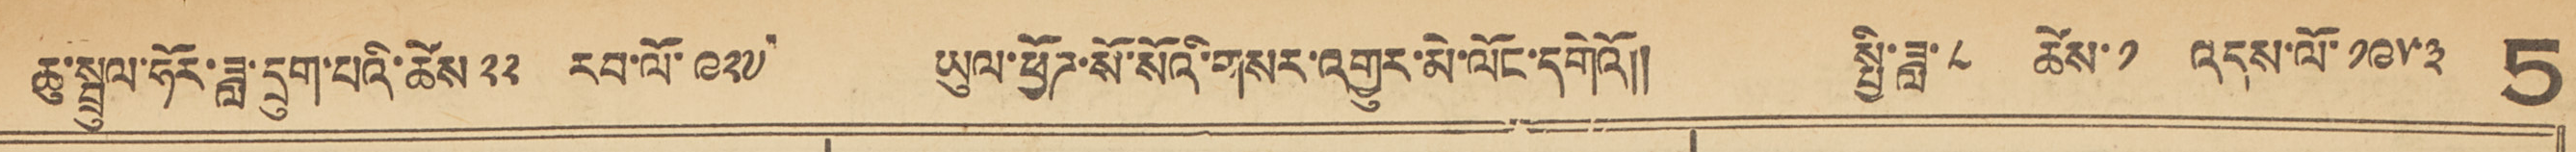ཆུ་སྦྲུལ་ཧོར་ཟླ་དྲུག་པའི་ཚེས་ ༢༢ རབ་ལོ་ ༩༢༧ ཡུལ་ཕྱོཌ་སོ་སོའི་གསར་འགྱུར་མེ་ལོང་དགེའོ།། སྤྱི་ཟླ་༨ ཚེས ༡ འདས་ལོ་༡༩༥༣ 5
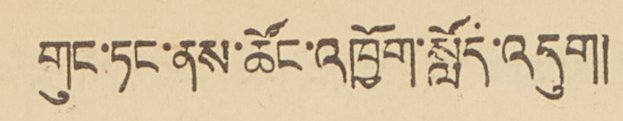གུང་ཏང་ནས་ཚོང་འཁྱོག་སློད་འདུག།།
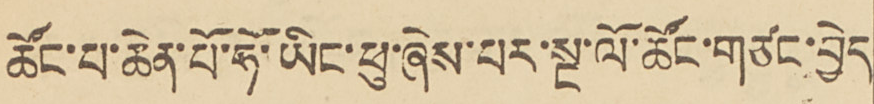ཚོང་པ་ཆེན་པོ་ཧོ་ཡིང་ཕུ་ཞེས་པར་སྔ་ལོ་ཚོང་གཙང་བྱེད
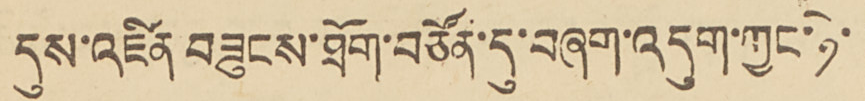དུས་འཛིན བཟུངས་ཐོག་བཙོན་དུ་བཞག་འདུག་ཀྱང་ཉེ་
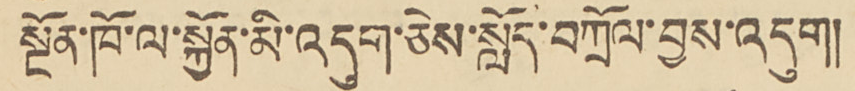སྔོན་ཁོ་ལ་སྐྱོན་མི་འདུག་ཅེས་སློད་བཀྲོལ་བྱས་འདུག།།
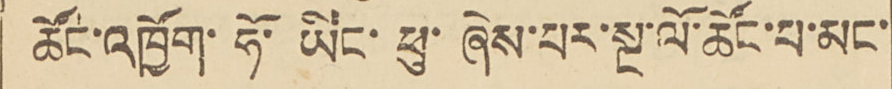ཚོང་འཁྱོག་ཧོ་ཡིང་ཕུ་ཞེས་པར་སྔ་ལོ་ཚོང་པ་མང་
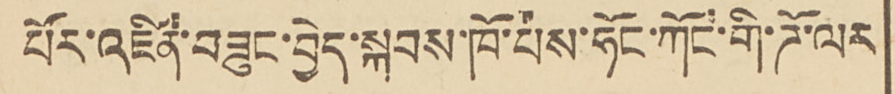པོར་འཛིན་བཟུང་བྱེད་སྐབས་ཁོ་པས་ཧོང་ཀོང་གི་ཌི་ལར
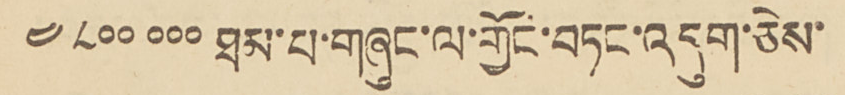༤༨༠༠༠༠༠ཐམ་པ་གཞུང་ལ་གྱོང་བཏང་འདུག་ཅེས་
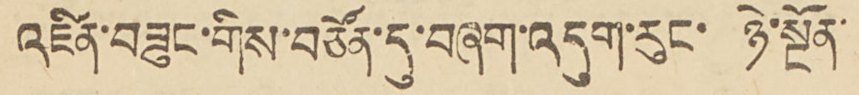འཛིན་བཟུང་གིས་བཙོན་དུ་བཞུག་འདུག་རུང་ ཉེ་སྔོན་
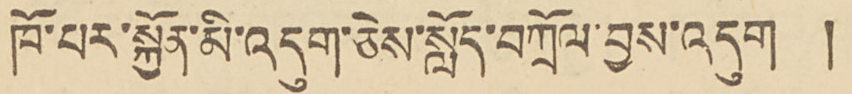ཁོ་པར་སྐྱོན་མི་འདུག་ཅེས་སློད་བཀྲོལ་བྱས་འདུག །
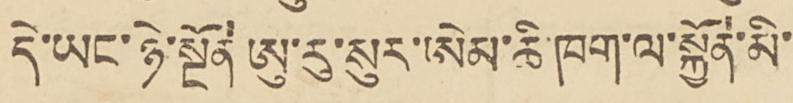དེ་ཡང་ཉེ་སྔོན ཨུ་རུ་སུར་ཨེམ་ཆི་ཁག་ལ་སྐྱོན་མི་
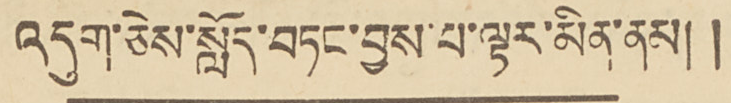འདུག་ཅེས་སློད་བཏང་བྱས་པ་ལྟར་མིན་ནམ།།
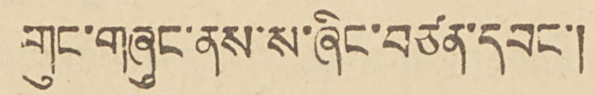གུང་གཞུང་ནས་ས་ཞིང་བཙན་དབང་།
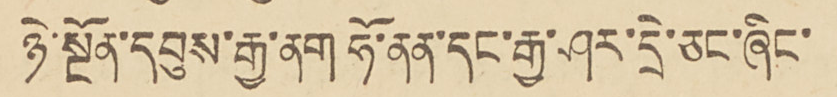ཉེ་སྔོན་དབུས་རྒྱ་ནག ཧོ་ནན་དང་རྒྱ་ཤར་དྲེ་ཅང་ཞིང་
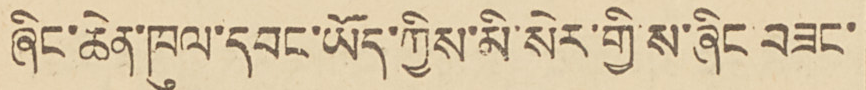ཞིང་ཆེན་ཁུལ་དབང་ཡོད་ཀྱིས་མི་སེར་གྱི་ས་ཞིང་བཟང་
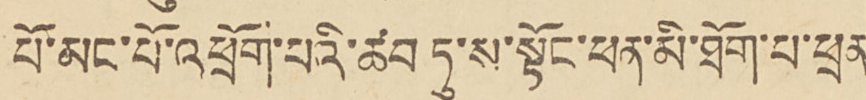པོ་མང་པོ་འཕྲོག་པའི་ཚབ ཏུ་ས་སྟོང་ཕན་མི་ཐོག་པ་ཕྲན
